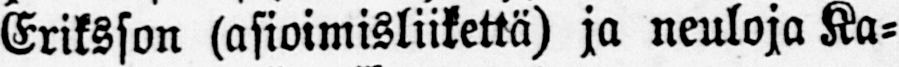Eriksson (asioimisliikettä) ja neuloja Ka-
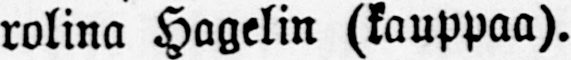rolina Hagelin (kauppaa).
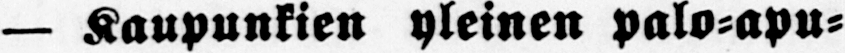— Kaupunkien yleinen palo-apu-
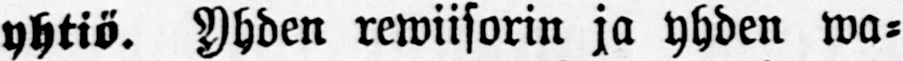yhtiö. Yhden rewiisorin ja yhden wa-
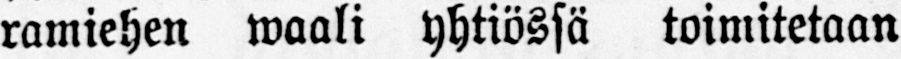ramiehen waali yhtiössä toimitetaan
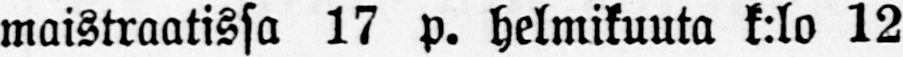maistraatissa 17 p. helmikuuta k:lo 12
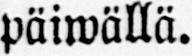päiwällä.
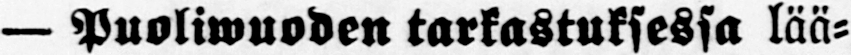— Puoliwuoden tarkastuksessa lää-
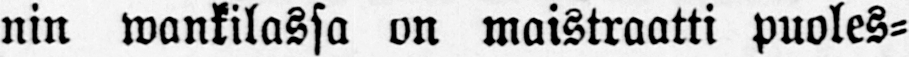nin wankilassa on maistraatti puoles-
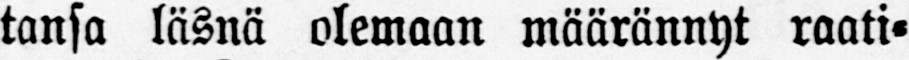tansa läsnä olemaan määrännyt raati-
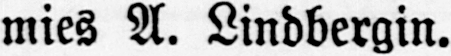mies A. Lindbergin.
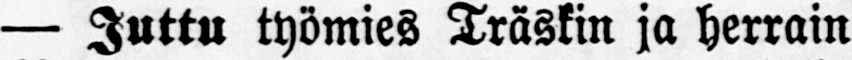— Juttu työmies Träskin ja herrain
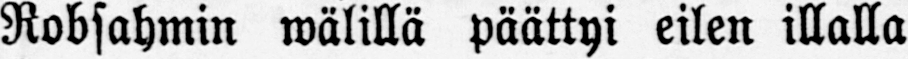Robsahmin wälillä päättyi eilen illalla
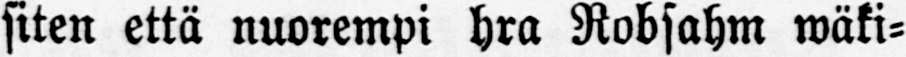siten että nuorempi hra Robsahm wäki-
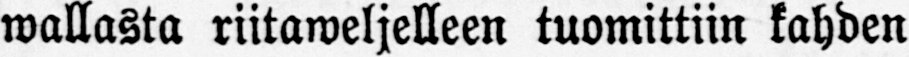wallasta riitaweljelleen tuomittiin kahden
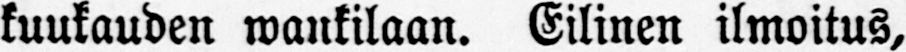kuukauden wankilaan. Eilinen ilmoitus,
